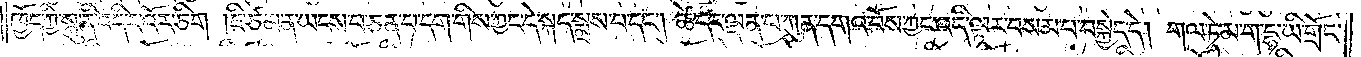ཁྱོད་ཀྱི་སྐུ་ནི་འདིར་འོང་ཅིག །ཇི་ཙམ་ན་ཡངས་པ་ཅན་པ་དག་གིས་ཀྱང་དེ་སྐད་སྨྲས་པ་དང༌། ཚེ་དང་ལྡན་པ་ཀུན་དགའ་བོས་ཀྱང་འདི་ལྟར་བསམ་པ་བསྐྱེད་དེ། གལ་ཏེ་མ་ག་དྷ་ཡི་གྲོང་
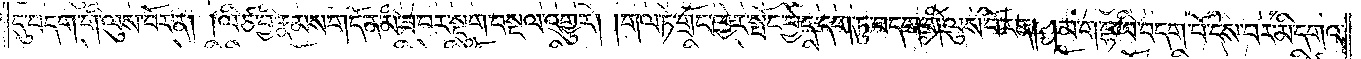དུ་བདག་གི་ལུས་བོར་ན། །ལི་ཙ་བྱི་རྣམས་གདོན་མི་ཟ་བར་སྡུག་བསྔལ་འགྱུར། །གལ་ཏེ་གྲོང་ཁྱེར་སྤོང་བྱེད་དག་ཏུ་བདག་གི་ལུས་བོར་ན། །མ་ག་དྷ་ཡི་བདག་པོ་ངེས་བར་མི་དགའ་
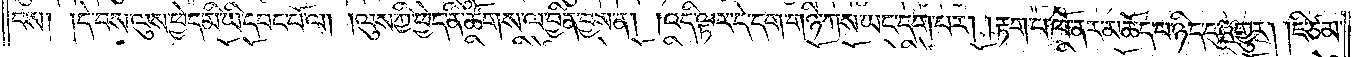བས། །དེ་བས་ལུས་ཕྱེད་མི་ཡི་དབང་པོ་ལ། །ལུས་ཀྱི་ཕྱེད་ནི་ཚོགས་ལ་བྱིན་བྱས་ན། །འདི་ལྟར་དེ་དག་གཉི་ཀས་ཡང་དག་པར། །རྟག་པ་ཁོ་ནར་མཆོད་པ་ཉིད་དུ་འགྱུར། །ཇི་ཙམ་
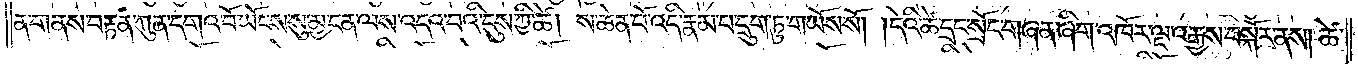ན་གནས་བརྟན་ཀུན་དགའ་བོ་ཡོངས་སུ་མྱ་ངན་ལས་འདའ་བའི་དུས་ཀྱི་ཚེ། ས་ཆེན་པོ་འདི་རྣམ་པ་དྲུག་ཏུ་གཡོས་སོ། །དེའི་ཚེ་དྲང་སྲོང་གཞན་ཞིག་འཁོར་ལྔ་བརྒྱས་བསྐོར་ནས། ཚེ་
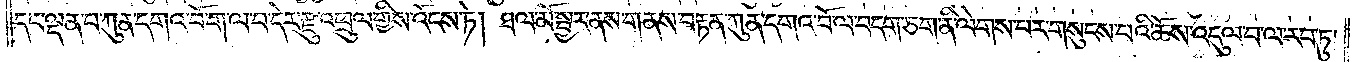དང་ལྡན་པ་ཀུན་དགའ་བོ་ག་ལ་བ་དེར་རྫུ་འཕྲུལ་གྱིས་འོངས་ཏེ། ཐལ་མོ་སྦྱར་ནས་གནས་བརྟན་ཀུན་དགའ་བོ་ལ་བདག་ཅག་ནི་ལེགས་པར་གསུངས་པའི་ཆོས་འདུལ་བ་ལ་རབ་ཏུ་
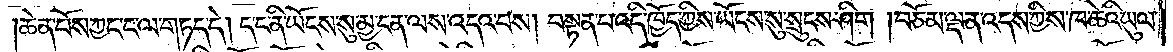།ཆེན་པོས་ཀྱང་ང་ལ་གཏད་དེ། ད་ང་ནི་ཡོངས་སུ་མྱ་ངན་ལས་འདའ་བས། བསྟན་པ་འདི་ཁྱོད་ཀྱིས་ཡོངས་སུ་སྲུངས་ཤིག །བཅོམ་ལྡན་འདས་ཀྱིས་ཁ་ཆེའི་ཡུལ་
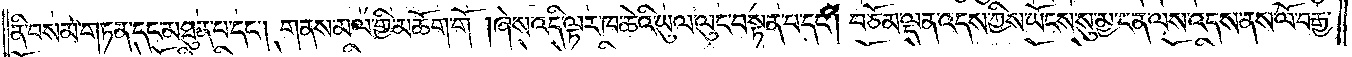ནི་བསམ་གཏན་དང་མཐུན་པ་དང༌། གནས་མལ་གྱི་མཆོག་གོ། །ཞེས་འདི་ལྟར་ཁ་ཆེའི་ཡུལ་ལུང་བསྟན་པ་དང༌། བཅོམ་ལྡན་འདས་ཀྱིས་ཡོངས་སུ་མྱ་ངན་ལས་འདས་ནས་ལོ་བརྒྱ་
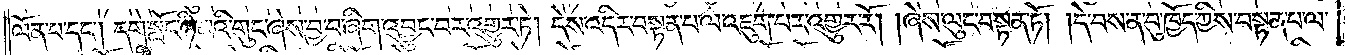ལོན་པ་དང༌། དགེ་སློང་ཉི་མའི་གུང་ཞེས་བྱ་བ་ཞིག་འབྱུང་བར་འགྱུར་ཏེ། དེས་འདིར་བསྟན་པ་ལ་འཇུག་པར་འགྱུར་རོ། །ཞེས་ལུང་བསྟན་ཏོ། །དེ་བས་ན་བུ་ཁྱོད་ཀྱིས་བསྟན་པ་ལ་
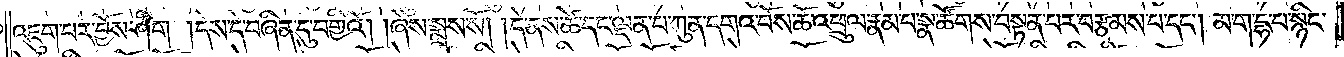འཇུག་པར་བྱོས་ཤིག །དེས་དེ་བཞིན་དུ་བགྱིའོ། །ཞེས་སྨྲས་སོ། །དེ་ནས་ཚེ་དང་ལྡན་པ་ཀུན་དགའ་བོས་ཆོ་འཕྲུལ་རྣམ་པ་སྣ་ཚོགས་བསྟན་པར་བརྩམས་པ་དང༌། མ་ག་དྷ་པ་སྙིང་
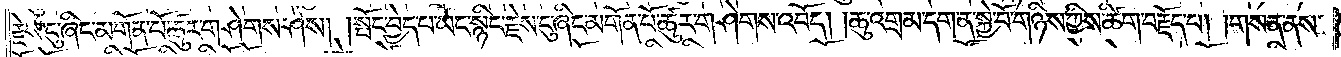རྗེས་ངུ་ཞིང་མགོན་པོ་ཚུར་གཤེགས་ཤེས། །སྤོང་བྱེད་པ་ཡང་སྙིང་རྗེས་ངུ་ཞིང་མགོན་པོ་ཚུར་གཤེགས་འབོད། །ཆུ་འགྲམ་དག་ན་སྐྱེ་བོ་གཉིས་ཀྱིས་ཚིག་བརྗོད་པ། །གསན་ནས་
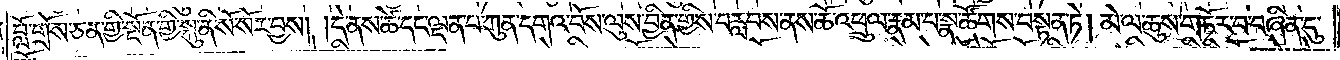བློ་གྲོས་ཅན་གྱི་སྔོན་གྱི་སྐུ་ནི་སོ་སོར་བྱས། །དེ་ནས་ཚེ་དང་ལྡན་པ་ཀུན་དགའ་བོས་ལུས་བྱིན་གྱིས་བརླབས་ནས་ཆོ་འཕྲུལ་རྣམ་པ་སྣ་ཚོགས་བསྟན་ཏེ། མེ་ལ་ཆུས་གཏོར་བ་བཞིན་དུ་
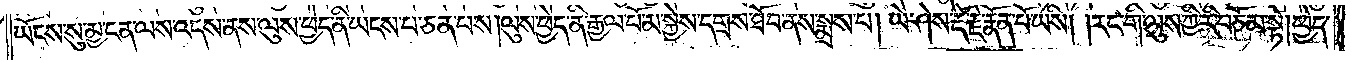ཡོངས་སུ་མྱ་ངན་ལས་འདས་ནས་ལུས་ཕྱེད་ནི་ཡངས་པ་ཅན་པས།ལུས་ཕྱེད་ནི་རྒྱལ་པོ་མ་སྐྱེས་དགྲས་ཐོབ་ནས་སྨྲས་པ། ཡེ་ཤེས་རྡོ་རྗེ་རྣོན་པོ་ཡིས། །རང་གི་ལུས་ཀྱི་རི་བཅོམ་སྟེ། ཕྱེད་
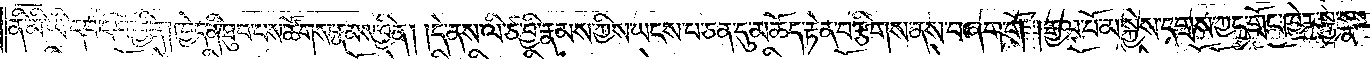ནི་མི་ཡི་དབང་པོ་བྱིན། ཁྱེད་ནི་ཐུབ་པས་ཚོགས་རྣམས་བྱིན། །དེ་ནས་ལི་ཙ་བྱི་རྣམས་ཀྱིས་ཡངས་པ་ཅན་དུ་མཆོད་རྟེན་བརྩིགས་ནས་བཞག་གོ །རྒྱལ་པོ་མ་སྐྱེས་དགྲས་ཀྱང་གྲོང་ཁྱེར་སྐྱ་སྣར་
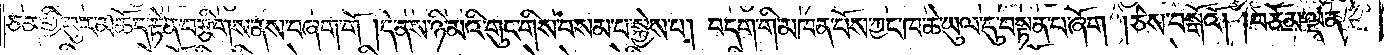ཅན་གྱི་བུར་མཆོད་རྟེན་བརྩིགས་ནས་བཞག་གོ །དེ་ནས་ཉི་མའི་གུང་གིས་བསམ་པ་སྐྱེས་པ། བདག་གི་མཁན་པོས་ཀྱང་ཁ་ཆེ་ཡུལ་དུ་བསྟན་པ་ཞོག །ཅེས་བསྒོའོ། །བཅོམ་ལྡན་
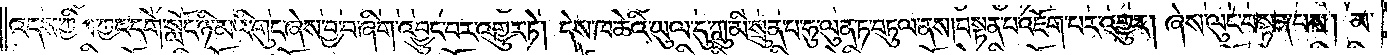འདས་ཀྱིས་ཀྱང་དགེ་སློང་ཉི་མའི་གུང་ཞེས་བྱ་བ་ཞིག་འབྱུང་བར་འགྱུར་ཏེ། དེས་ཁ་ཆེའི་ཡུལ་དུ་ཀླུ་མི་སྲུན་པ་ཧུ་ལུན་ཏ་བཏུལ་ནས། བསྟན་པ་འཇོག་པར་འགྱུར། ཞེས་ལུང་བསྟན་པས། མ་
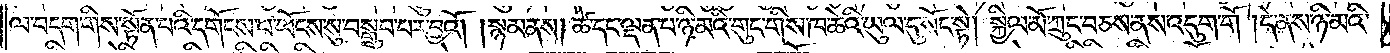ལ་བདག་གིས་སྟོན་པའི་དགོངས་པ་ཡོངས་སུ་བསྒྲུབ་པར་བྱའོ། །སྙམ་ནས། ཚེ་དང་ལྡན་པ་ཉི་མའི་གུང་གིས་ཁ་ཆེའི་ཡུལ་དུ་སོང་སྟེ། སྐྱིལ་མོ་ཀྲུང་བཅས་ནས་འདུག་གོ །དེ་ནས་ཉི་མའི་
